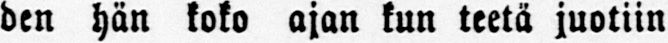den hän koko ajan kun teetä juotiin
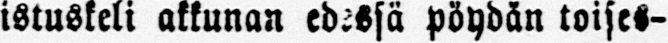istuskeli akkunan edessä pöydän toises-
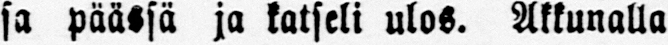sa päässä ja katseli ulos. Akkunalla
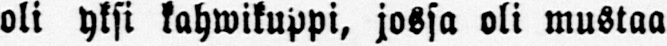oli yksi kahwikuppi, jossa oli mustaa
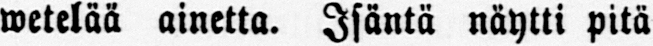wetelää ainetta. Isäntä näytti pitä
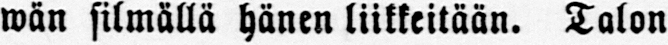wän silmällä hänen liikkeitään. Talon
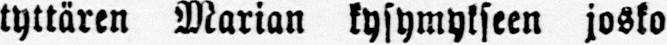tyttären Marian kysymykseen josko
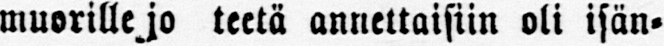muorille jo teetä annettaisiin oli isän-
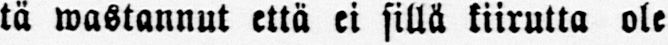tä wastannut että ei sillä kiirutta ole
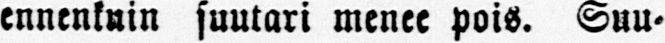ennenkuin suutari menee pois. Suu-
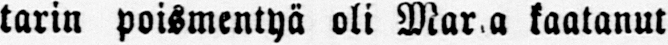tarin poismentyä oli Mar a kaatanut
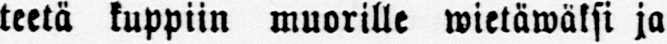teetä kuppiin muorille wietäwäksi ja
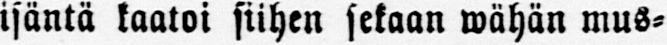isäntä kaatoi siihen sekaan wähän mus-
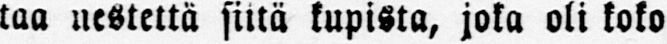taa nestettä siltä kupista, joka oli koko
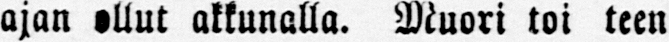ajan ollut akkunalla. Muori toi teen
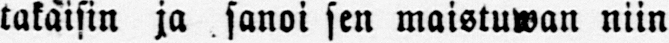lakaisin ja sanoi sen maistuwan niin
